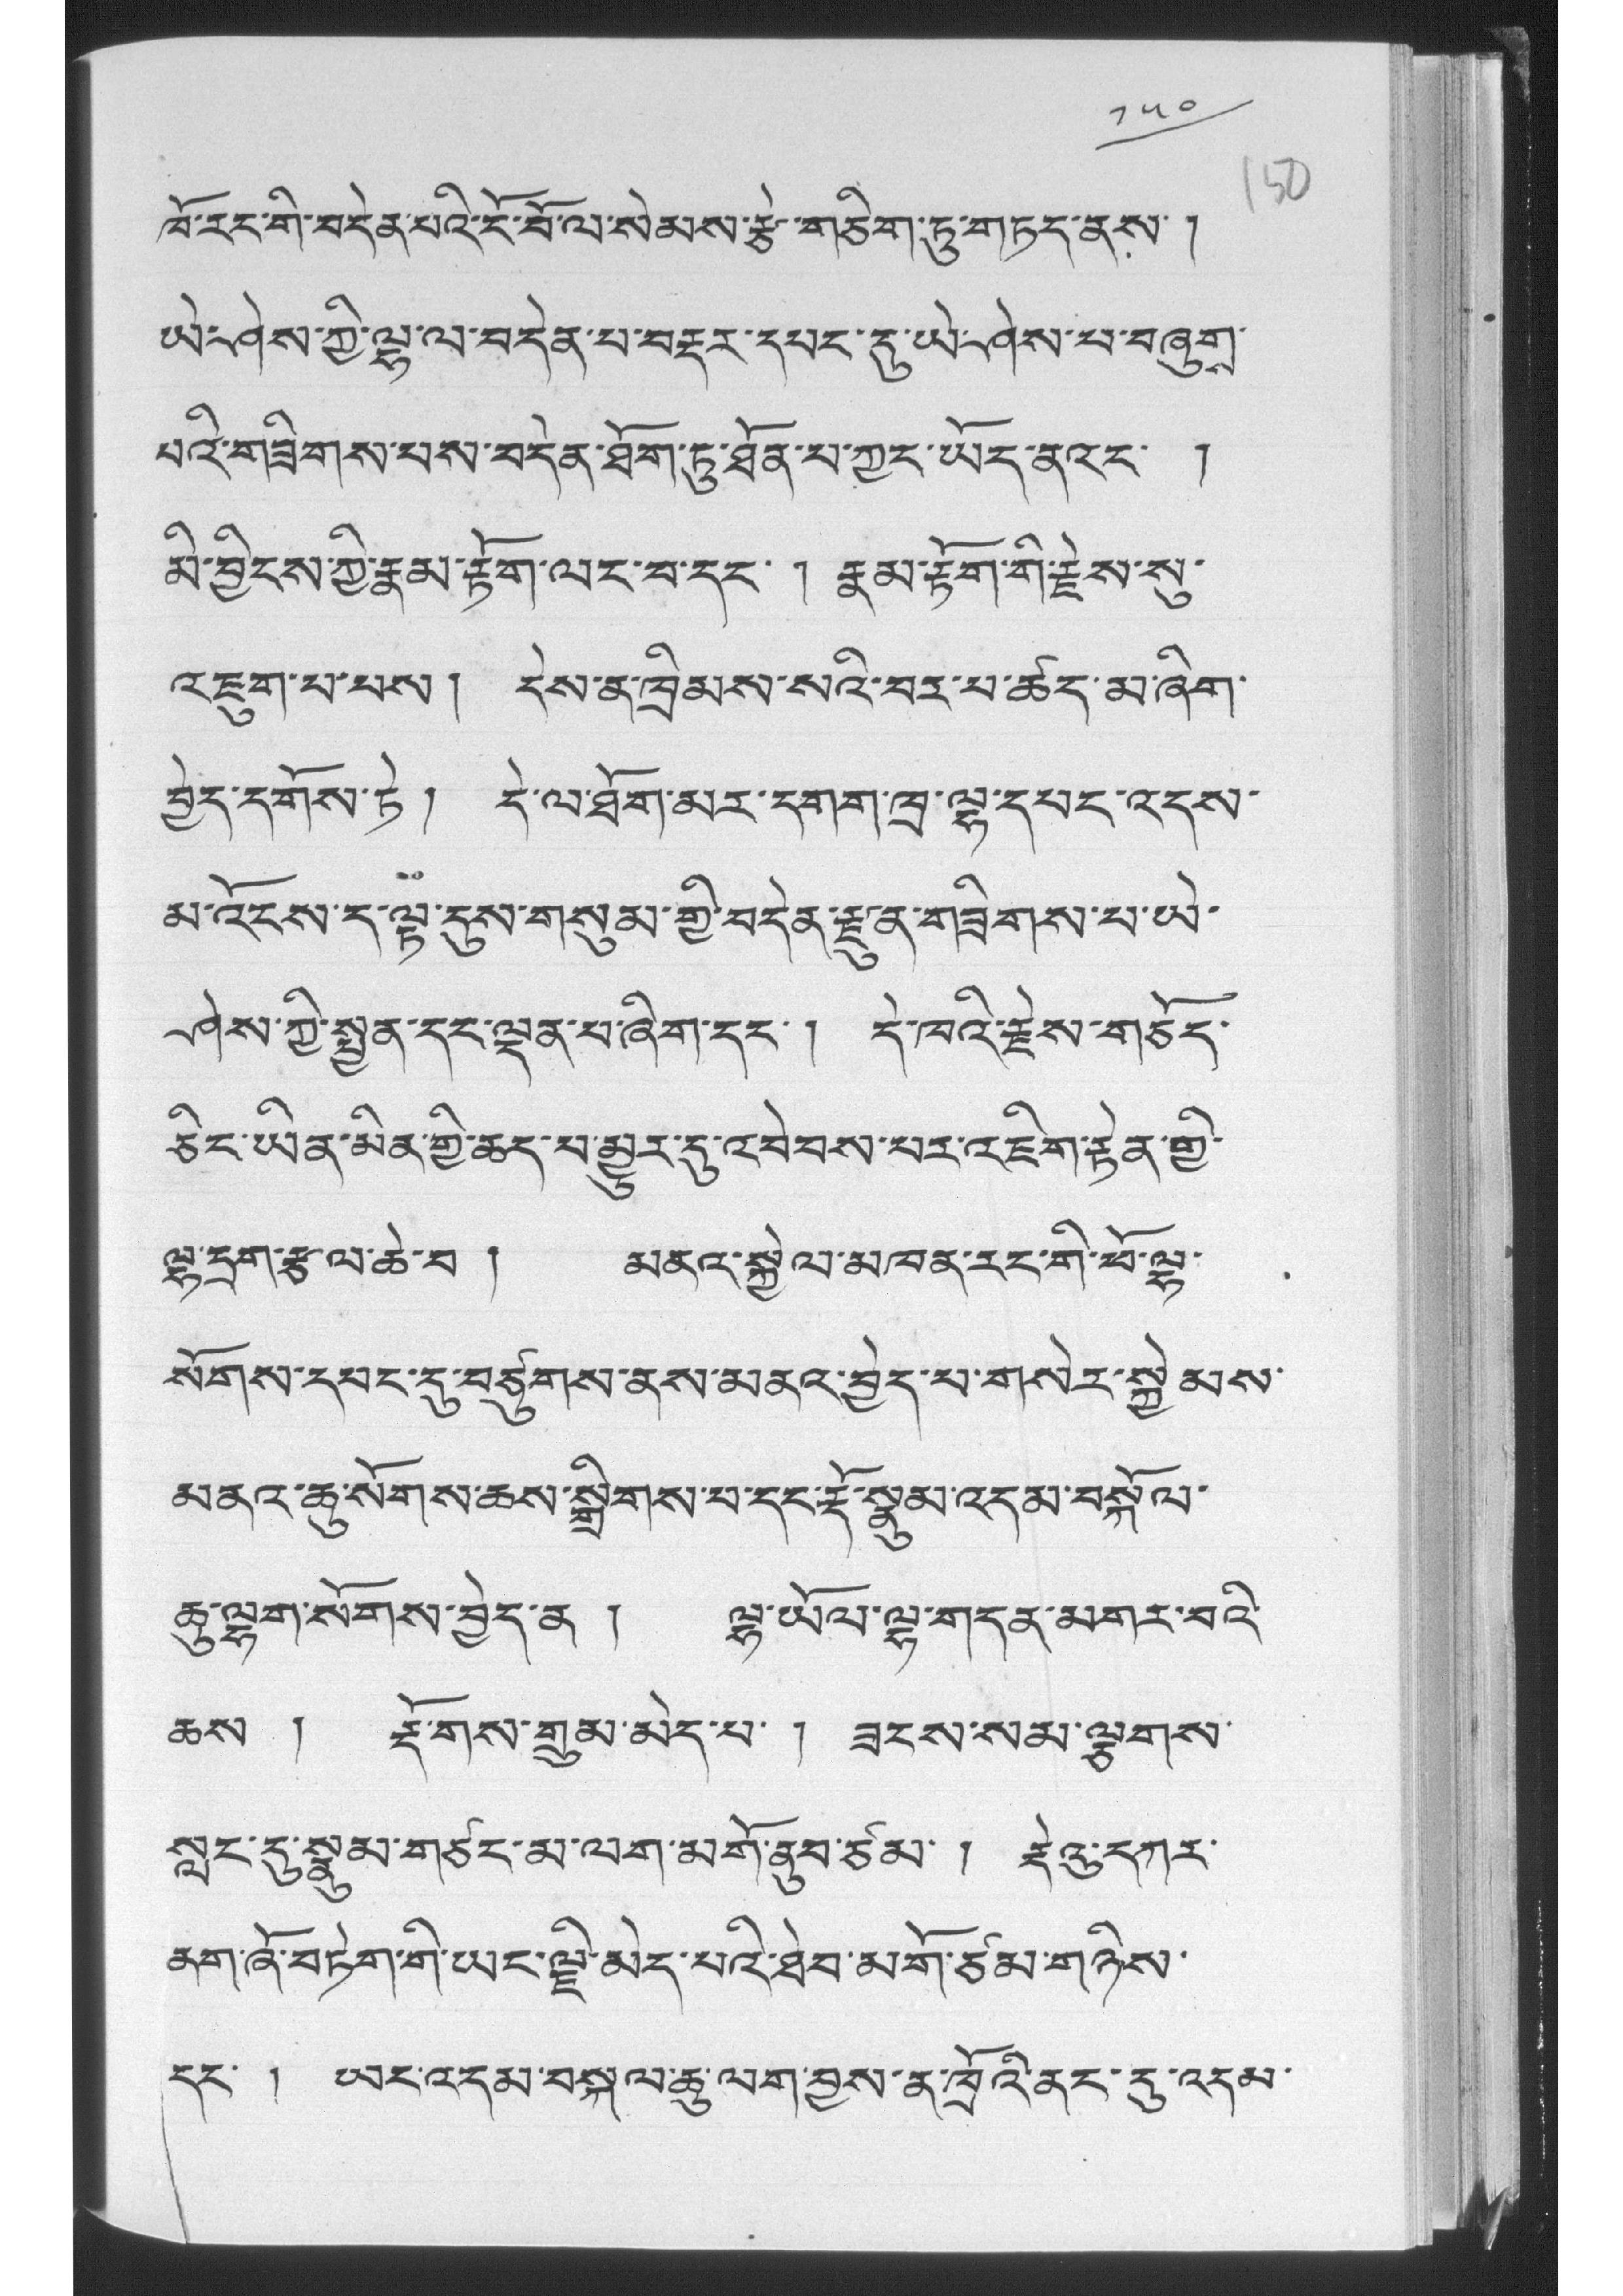༡༥༠
ཁོ་རང་གི་བདེན་པའི་ངོ་བོ་ལ་སེམས་རྩེ་གཅིག་ཏུ་གཏད་ནས་ །
ཡེ་ཤེས་ཀྱི་ལྷ་ལ་བདེན་པ་བརྡར་དཔང་དུ་ཡེ་ཤེས་པ་བཞུགས་
པའི་གཟིགས་པས་བདེན་ཐོག་ཏུ་ཐོན་པ་ཀྱང་ཡོད་ནའང་ །
མི་བྱིངས་ཀྱི་རྣམ་རྟོག་ལང་བ་དང་ ། རྣམ་རྟོག་གི་རྗེས་སུ་
འཇུག་པ་པས། དེས་ན་ཁྲིམས་སའི་བར་པ་ཚད་མ་ཞིག་
བྱེད་དགོས་ཏེ ། དེ་ལ་ཐོག་མར་དགག་ཁྲ་ལྷ་དཔང་འདས་
མ་འོངས་ད་ལྟ་དུས་གསུམ་གྱི་བདེན་རྫུན་གཟིགས་པ་ཡེ་
ཤེས་ཀྱི་སྤྱན་དང་ལྡན་པ་ཞིག་དང་ ། དེ་ཁའི་རྗེས་གཅོད་
ཅིང་ཡིན་མིན་གྱི་ཆད་པ་མྱུར་དུ་འབེབས་པར་འཇིག་རྟེན་གྱི་
ལྷ་དྲག་རྩལ་ཆེ་བ ། མནའ་སྐྱེལ་མཁན་རང་གི་ཕོ་ལྷ་
སོགས་དཔང་དུ་བཙུགས་ནས་མནའ་བྱེད་པ་གསེར་སྐྱེམས་
མནའ་ཆུ་སོགས་ཆས་སྒྲིགས་པ་དང་རྡོ་སྣུམ་འདམ་བསྐོལ་
ཆུ་ལྷག་སོགས་བྱེད་ན ། ལྷ་ཡོལ་ལྷ་གདན་མགར་བའི་
ཆས ། རྡོགས་གྲུམ་མེད་པ་ ། ཟངས་སམ་ལྕགས་
སླང་དུ་སྣུམ་གཙང་མ་ལག་མགོ་ནུབ་ཙམ་ ། རྡེའུ་དཀར་
ནག་ཞོ་བཏེག་གི་ཡང་ལྗི་མེད་པའི་ཐེབ་མགོ་ཙམ་གཉིས་
དང་ ། ཡང་འདམ་བསྐལ་ཆུ་ལག་བྱས་ན་ཁྲོའི་ནང་དུ་འདམ་
